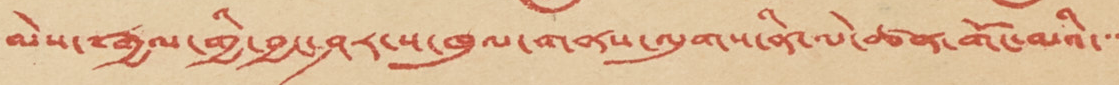མེས་༸རྒྱལ་གྱི་བྱང་ཤར་ས་ཁུལ་གནས་ལུགས་ནི་ལེ་ཚན་གོང་མའི་་་
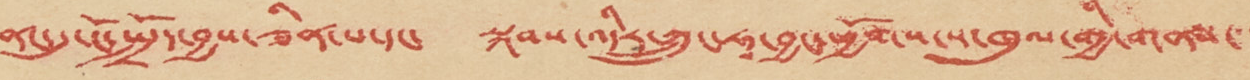ནང་དུ་ངོ་སྤྲོད་བྱས་ཟིན་པ་དང་ སྐབས་འདིར་ཀྲུང་ཧྭ་བྱང་ཕྱོགས་ས་ཁུལ་གྱི་གནས་་་
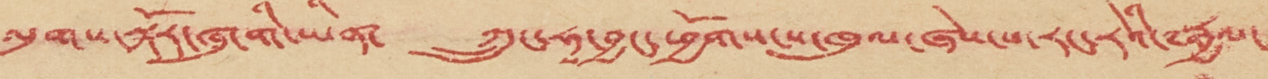ལུགས་སྐོར་ཞུ་གི་ཡིན་ ཀྲུང་ཧྭ་བྱང་ཕྱོགས་ས་ཁུལ་ཞེས་པ་རང་རེའི་༸རྒྱལ་
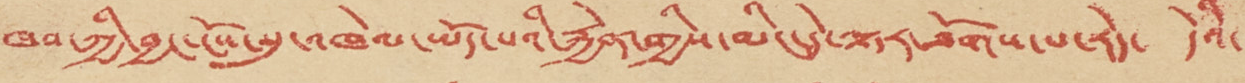ཁབ་ཀྱི་བྱང་ངོས་སུ་འཁེལ་ཡོད་པའི་རྐྱེན་གྱིས་མིང་དེ་ལྟར་ཐོགས་པ་རེད་ དེའི་
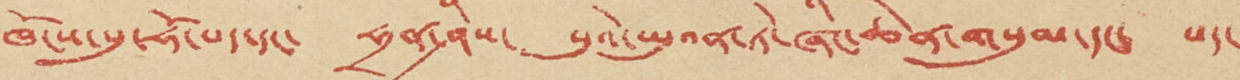ཁོངས་སུ་ཧོ་པད་དང་ ཧྲན་ཤིས་ སུའེ་ཡུའན་ཏེ་ཞིང་ཆེན་གསུམ་དང་ པད་
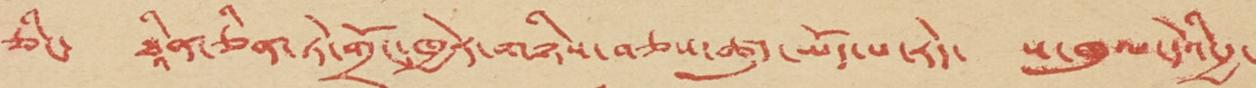ཅིང་ ཐཱིན་ཅིན་ཏེ་གྲོང་ཁྱེར་གཉིས་བཅས་ཚུད་ཡོད་པ་རེད་ ས་ཁུལ་དེའི་རྒྱ་
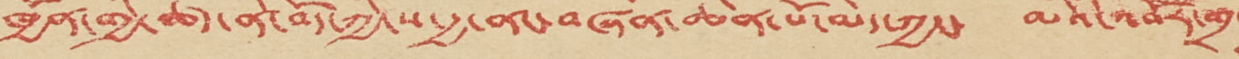ཁྱོན་གྱི་ཚད་ནི་བོད་ཀྱི་ས་རྒྱ་ནང་བཞིན་ཆེན་པོ་མེད་ཀྱང་ མིའི་འབོར་གྲང་
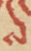ས
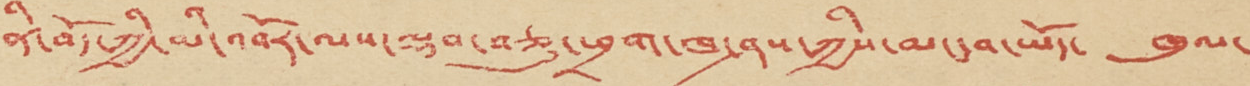ནི་བོད་ཀྱི་མི་འབོར་ལས་ལྡབ་བཅུ་ཕྲག་ཁ་ཤས་ཀྱིས་མང་བ་ཡོད་ ཁུལ་
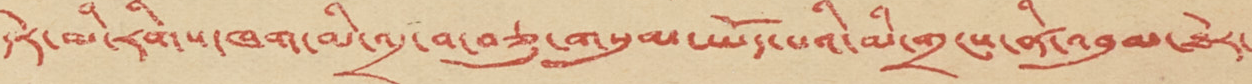དེར་མི་རིགས་ཁག་གི་འདྲ་བ་བཅུ་གསུམ་ཡོད་པའི་མི་གྲངས་ནི་འབུམ་ཐེར་
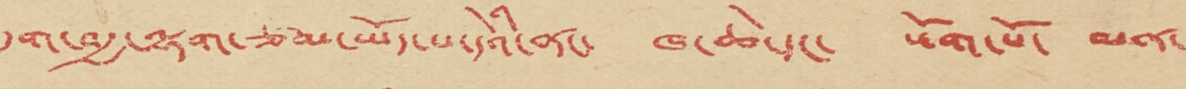དྲུག་བརྒྱ་ལྷག་ཙམ་ཡོད་པ་དེའི་ནང་ ཁ་ཆེ་དང་ སོག་པོ་ མན་
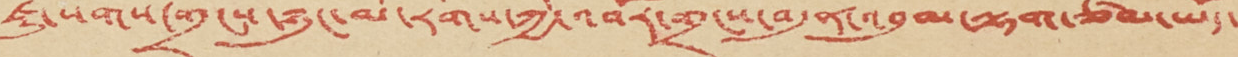ཇུ་སོགས་གྲངས་ཉུང་མི་རིགས་ཀྱི་འབོར་གྲངས་བདུན་འབུམ་ལྷག་ཙམ་ཡོད་
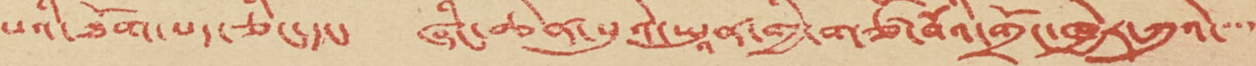པའི་ཐོག་པད་ཅིང་དང་ ཞིང་ཆེན་སུའེ་ཡཱུན་གྱི་གཙོ་བོའི་གྲོང་ཁྱེར་ཀུའེ་་་་
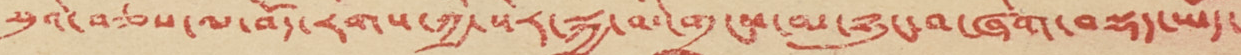སུའེ་བཅས་ལ་བོད་རིགས་ཀྱི་སེར་སྐྱ་མི་གྲངས་མ་ཉུང་བ་ཞིག་བསྡད་ཡོད་
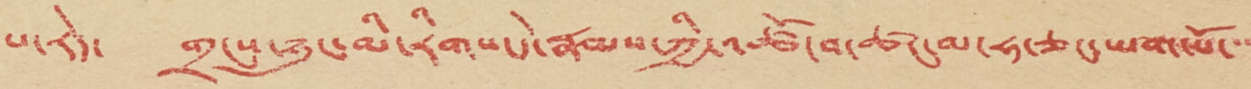པ་རེད་ གྲངས་ཉུང་མི་རིགས་དེ་རྣམས་ཀྱི་འཚོ་བ་ཚང་མ་ཧ་ཅང་ཡག་པོ་་་
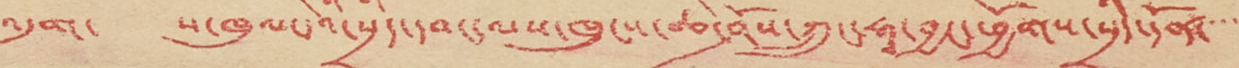འདུག་ ས་ཁུལ་དེའི་སྲིད་དབང་ལས་ཁུངས་ཆེ་ཤོས་ཀྲུང་ཧྭ་བྱང་ཕྱོགས་དྲིད་དོན་་་་
